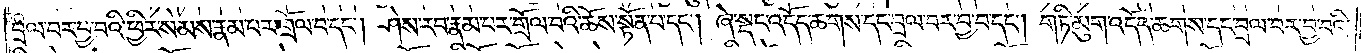བྲལ་བར་བྱ་བའི་ཕྱིར་སེམས་རྣམ་པར་གྲོལ་བ་དང༌། ཤེས་རབ་རྣམ་པར་གྲོལ་བའི་ཆོས་སྟོན་པ་དང༌། ཞེ་སྡང་འདོད་ཆགས་དང་བྲལ་བར་བྱ་བ་དང༌། གཏི་མུག་འདོད་ཆགས་དང་བྲལ་བར་བྱ་བའི་
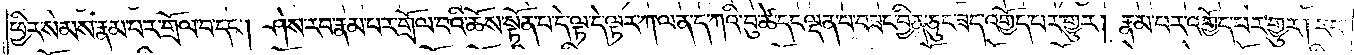ཕྱིར་སེམས་རྣམ་བར་གྲོལ་བ་དང༌། ཤེས་རབ་རྣམ་པར་གྲོལ་བའི་ཆོས་སྟོན་པ་དེ་ལྟ་དེ་ལྟར་ཀ་ལན་ད་ཀའི་བུ་ཚེ་དང་ལྡན་པ་བཟང་བྱིན་ཅུང་ཟད་འགྱོད་པར་གྱུར། རྣམ་པར་འགྱོད་པར་གྱུར། རབ་
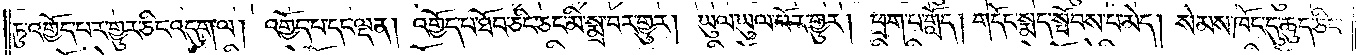ཏུ་འགྱོད་པར་གྱུར་ཅིང་འདུག་ལ། འགྱོད་པ་དང་ལྡན། འགྱོད་པ་ཐོབ་ཅིང་ཅང་མི་སྨྲ་བར་གྱུར། ཡུལ་ཡུལ་ཕོར་གྱུར། ཕྲག་པ་གློད། གདོང་སྨད་སྤོབས་པ་མེད། སེམས་ཁོང་དུ་ཆུད་ཅིང་
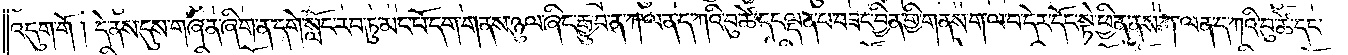འདུག་གོ། དེ་ནས་དུས་གཞན་ཞིག་ན་དགེ་སློང་རབ་ཏུ་མང་པོ་དག་གནས་ཉུལ་ཞིང་རྒྱུ་བ་ན་ཀ་ལན་ད་ཀའི་བུ་ཚེ་དང་ལྡན་པ་བཟང་བྱིན་གྱི་གནས་ག་ལ་བ་དེར་དོང་སྟེ་ཕྱིན་ནས་ཀ་ལན་ད་ཀའི་བུ་ཚེ་དང་
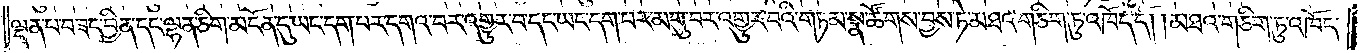ལྡན་པ་བཟང་བྱིན་དང་ལྷན་ཅིག་མངོན་དུ་ཡང་དག་པར་དགའ་བར་འགྱུར་བ་དང་ཡང་དག་པར་མགུ་བར་འགྱུར་བའི་གཏམ་སྣ་ཚོགས་བྱས་ཏེ་མཐའ་གཅིག་ཏུ་འཁོད་དོ། །མཐའ་གཅིག་ཏུ་འཁོད་
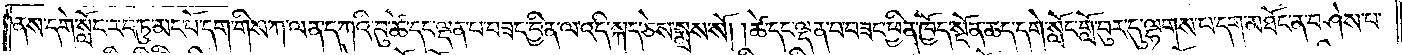ནས་དགེ་སློང་རབ་ཏུ་མང་པོ་དག་གིས་ཀ་ལན་ད་ཀའི་བུ་ཚེ་དང་ལྡན་པ་བཟང་བྱིན་ལ་འདི་སྐད་ཅེས་སྨྲས་སོ། །ཚེ་དང་ལྡན་པ་བཟང་ཕྱིན་ཁྱོད་སྔོན་ཆད་དགེ་སློང་གློ་བུར་དུ་ལྷགས་པ་དག་མཐོང་ན་བཤེས་པ་
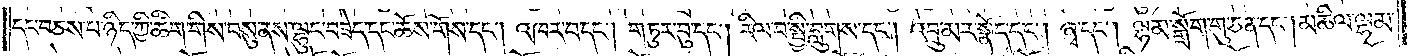དང་བཅས་པ་ཉིད་ཀྱི་ཚིག་གིས་བསུ་ནས་ལྷུང་བཟེད་དང་ཆོས་གོས་དང༌། འཁར་བ་དང༌། གཏུར་བུ་དང༌། རིལ་བ་སྤྱི་བླུགས་དང༌། འབྲུ་མར་སྣོད་དང༌། ཞྭ་དང༌། ལྷམ་སྒྲོག་གུ་ཅན་དང༌། མཆིལ་ལྷམ་
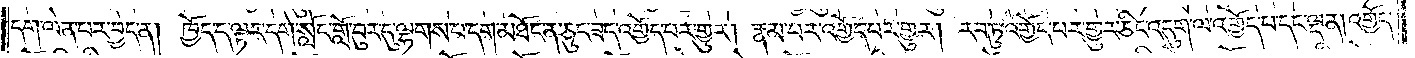དག་ལེན་པར་བྱེད་ན། ཁྱོད་ད་ལྟར་དགེ་སློང་གློ་བུར་དུ་ལྷགས་པ་དག་མཐོང་ན་ཅུང་ཟད་འགྱོད་པར་གྱུར། རྣམ་པར་འགྱོད་པར་གྱུར། རབ་ཏུ་འགྱོད་པར་གྱུར་ཅིང་འདུག་ལ་འགྱོད་པ་དང་ལྡན། འགྱོད་
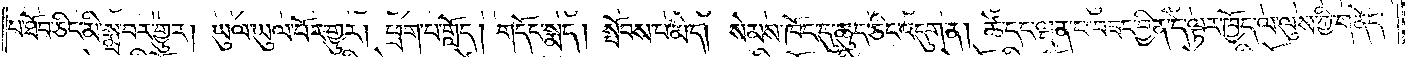པ་ཐོབ་ཅིང་མི་སྨྲ་བར་གྱུར། ཡུལ་ཡུལ་བོར་གྱུར། ཕྲག་པ་གློད། གདོང་སྨད། སྤོབས་པ་མེད། སེམས་ཁོང་དུ་ཆུད་ཅིང་འདུག་ན། ཚེ་དང་ལྡན་པ་བཟང་བྱིན་དེ་ལྟར་ཁྱོད་ལ་ལུས་ཀྱི་གནོད་
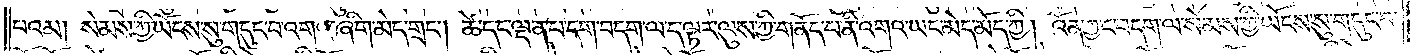པའམ། སེམས་ཀྱི་ཡོངས་སུ་གདུང་བ་འགའ་ཞིག་མེད་གྲང༌། ཚེ་དང་ལྡན་པ་དག་བདག་ལ་ད་ལྟར་ལུས་ཀྱི་གནོད་པ་ནི་འགའ་ཡང་མེད་མོད་ཀྱི། འོན་ཀྱང་བདག་ལ་སེམས་ཀྱི་ཡོངས་སུ་གདུང་བ་
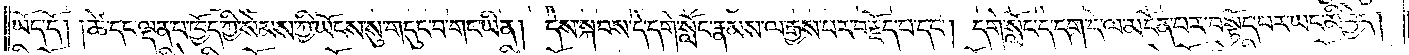ཡོད་དོ། །ཚེ་དང་ལྡན་པ་ཁྱོད་ཀྱི་སེམས་ཀྱི་ཡོངས་སུ་གདུང་བ་གང་ཡིན། དེས་སྐབས་དེ་དགེ་སློང་རྣམས་ལ་རྒྱས་པར་བརྗོད་པ་དང༌། དགེ་སློང་དེ་དག་དེ་ལ་མངོན་པར་བསྟོད་པར་ཡང་མི་བྱེད།
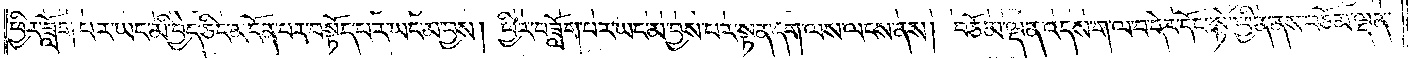ཕྱིར་ཟློག་པར་ཡང་མི་བྱེད་ཅིང་མངོན་པར་བསྟོད་པར་ཡང་མ་བྱས། ཕྱིར་བཟློག་པར་ཡང་མ་བྱས་པར་སྟན་དག་ལས་ལངས་ནས། བཅོམ་ལྡན་འདས་ག་ལ་བ་དེར་དོང་སྟེ་ཕྱིན་ནས་བཅོམ་ལྡན་
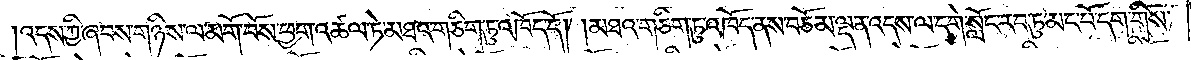འདས་ཀྱི་ཞབས་གཉིས་ལ་མགོ་བོས་ཕྱག་འཚལ་ཏེ་མཐའ་གཅིག་ཏུ་འཁོད་དོ། །མཐའ་གཅིག་ཏུ་འཁོད་ནས་བཅོམ་ལྡན་འདས་ལ་དགེ་སློང་རབ་ཏུ་མང་པོ་དག་གིས་
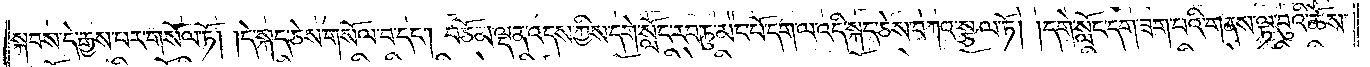སྐབས་དེ་རྒྱས་པར་གསོལ་ཏོ། །དེ་སྐད་ཅེས་གསོལ་བ་དང༌། བཅོམ་ལྡན་འདས་ཀྱིས་དགེ་སློང་རབ་ཏུ་མང་པོ་དག་ལ་འདི་སྐད་ཅེས་བཀའ་སྩལ་ཏོ། །དགེ་སློང་དག་ཟག་པའི་གནས་ལྟ་བུའི་ཆོས་
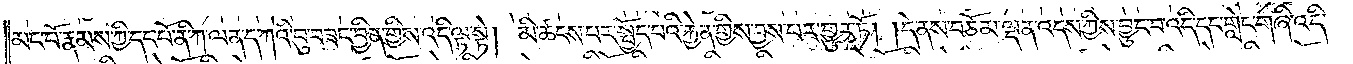མང་པོ་རྣམས་ཀྱི་དང་པོ་ནི་ཀ་ལན་ད་ཀའི་བུ་བཟང་བྱིན་གྱིས་འདི་ལྟ་སྟེ། མི་ཚངས་པར་སྤྱོད་པའི་རྐྱེན་གྱིས་བྱས་པར་གྱུར་ཏོ། །དེ་ནས་བཅོམ་ལྡན་འདས་ཀྱིས་བྱུང་བ་འདི་དང་གླེང་གཞི་འདི་
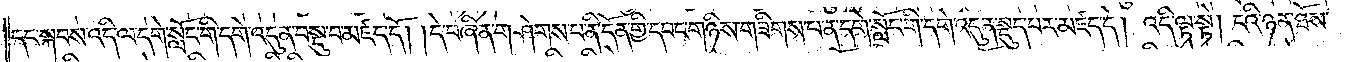དང་སྐབས་འདི་ལ་དགེ་སློང་གི་དགེ་འདུན་བསྡུ་བ་མཛད་དོ། །དེ་བཞིན་གཤེགས་པ་ནི་དོན་གྱི་དབང་གཉིས་གཟིགས་པ་ན་དགེ་སློང་གི་དགེ་འདུན་སྡུད་པར་མཛད་དེ། འདི་ལྟ་སྟེ། ངའི་ཉན་ཐོས་
